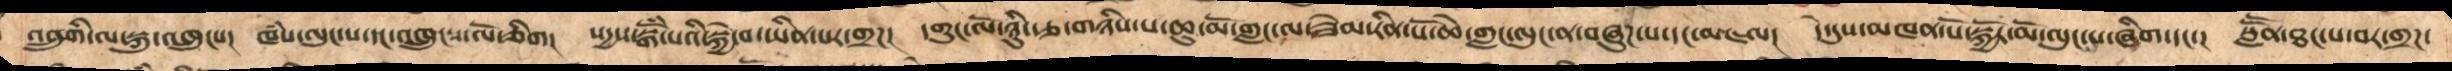འབྲུགི་ལ་སྐུ་འཁྲུངས།   ཁཾས་ལུང་ས་དང་འཁྲུངས་ལོ་ཅིག།   སདྱས་སྒོཾ་པའི་སྐྱེ་བ་ཡིན་པར་གྲཌ།  དགུང་ལོ་ཉིུ་རྩ་གཉིས་པ་ཆུ་མོ་གླང་ལ་ཟེམ་རིན་པོ་ཆེ་གླང་ལུང་ན་བཞུཌ་པ་དང་མཇལ།  དེ་དུས་མཁན་པོ་སྐྱོར་མོ་ལུང་པ་ཞིག་དང་།  སླཽན་ཐང་པ་བར་གྲཌ་
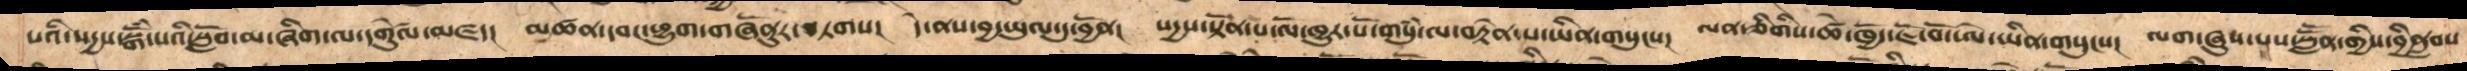པའི་སདྱས་སྒོཾ་པའི་སློབ་མ་ཞིག་ལ་དགེཚུལ་མཛད།  མཚན་དབང་ཕྱུག་གཞོནུར་བཏགས།།   དེ་ནས་བྱ་ཡུལ་དུ་བྱོན།  སདྱས་སྟོན་པ་ལོ་ཁྱུར་པོ་གསུཾ་ལ་བརྟེན་པ་ཡིན་གསུངས།   ལན་ཅིགིས་ཚེ་ཁྱོད་ཇོ་བོ་ཨེ་ཡིན་གསུངས།   ལག་ཞུས་པས་སླཽན་གྱིས་བྱིནླབས་
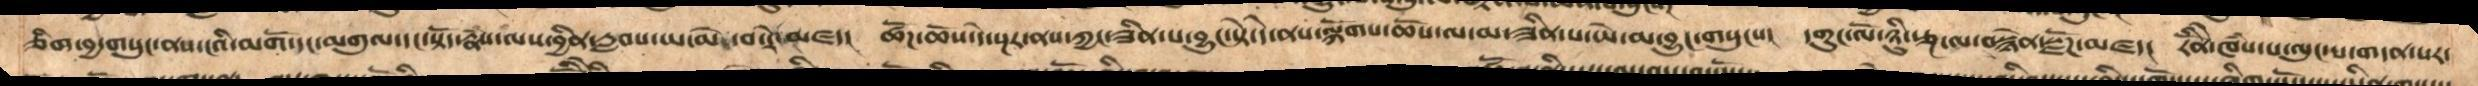ཅིག་བྱ་གསུང་ནས་ངའི་མགོ་དང་མགུལ་དང་སྟོད་རྣཾས་ལས་བྱིན་རླབས་ཡ་མེ་བ་རེ་མཛད།   ཚོཌ་ཆོས་དེ་སྔར་ནས་ཀྱང་ཟིན་པ་བྱུང་སྟེ་དེ་ནས་ལྐོགས་ཆོས་ལ་མ་ཟིན་པ་ཡེ་མ་བྱུང་གསུངས།  དགུང་ལོ་ཉིུ་རྩྔ་ལ་བསྙེན་སྫོཌ་མཛད།  རིནོེ་ཁཾས་པ་ལུང་པ་གདན་སར་
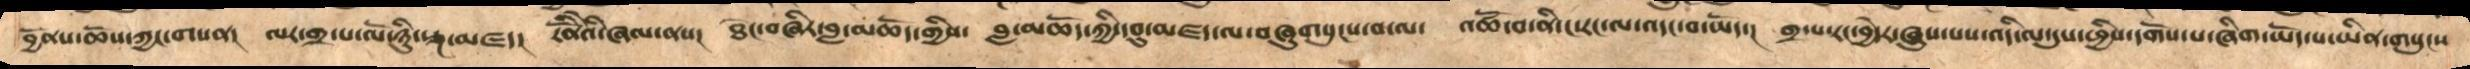བྱོནས་ཆོས་ཀྱང་གསན།   ལར་གྲ་པ་ལོ་ཉིུ་རྩྔ་མཛད།   རིནོེའི་ཞལ་ནས།  ཐེང་བཞིར་བླ་མཆོད་གྱིས་   བླ་མཆོད་ཀྱི་དབུ་མཛད་ལ་བཞུགསུངས་བ་ལ་  འཚོ་བ་ནི་ང་རང་ལ་འདང་བ་ཡོད་།   གྲ་པ་རང་བྱེདར་ཞུས་པས་འདི་ལ་དུས་ཕྱིས་དགོས་པ་ཞིག་ཡོད་པ་ཡིན་གསུངས
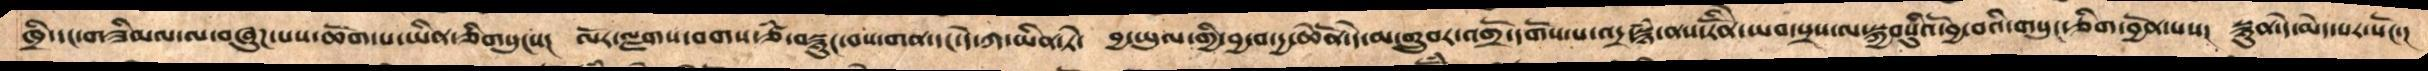ཁྲི་དང་གཟིམལ་ལ་བཞུཌ་པས་ཆོག་པ་ཡིན་ཅིགསུངས།    ལོར་ལྗགས་བགས་ཙཾ་བསྙུང་བས་གན་དང་དེ་ཀ་ཡིན་ཏེ་   བྱ་ཡུལ་གྱི་བྱ་བ་དྱ་ཆེནོ་དེ་མ་གྲུབར་འགྲོ་དགོས་པ་འདྲ་སྙཾ་ནས་རིནོེ་ཡབ་སྲས་ལ་སྐྱབསིུའོ་བྱ་བའི་གསུང་ཅིག་བྱོན་པས།   སྙུན་དེ་མེད་པར་སོང་།
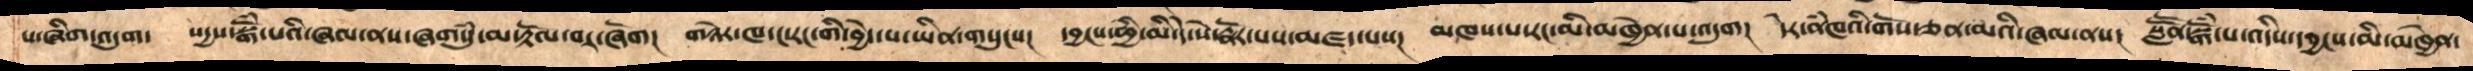པ་ཞིག་འདུག་  སདྱས་སྒོཾ་པའི་ཞལ་ནས་ཞགསུཾ་མ་རྟོལ་བར་ཞོག།  གཉེར་ཁ་ང་རང་གི་བྱེད་པ་ཡིན་གསུངས།   དབྱངས་ཕྱི་མི་དེ་སེ་རྣོར་པས་མཛད་པས།  མཁས་པ་རང་མི་མཁྱེན་པ་འདུག།  དེར་ནཾཁའི་གོས་ཅན་མའི་ཞལ་ནས།  སླཽན་སྒོཾ་པ་འདིས་དབྱངས་མི་མཁྱེན་
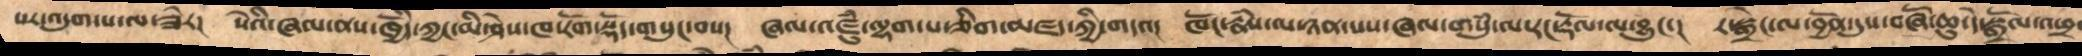སར་འདུག་པ་ལ་ཟེར།   སེའི་ཞལ་ནས་ཁྱོདི་ཀྱང་མི་ཤེས་ཁ་རོག་སྡོད་གསུང་བས།   ཞལ་འཛུཾ་ལྷག་པ་ཅིག་མཛད་ཀྱི་གདའ།  ཁོང་རྣཾས་ལ་ཉན་པས་ཞལ་གསུཾ་ལ་རང་རྡོལ་ལ་བྱུང་།  ར་སྒྲེང་ལ་བྱོན་དུས་བཞོ་ཆུ་དེ་སྒྲོལ་འཕྲོ་
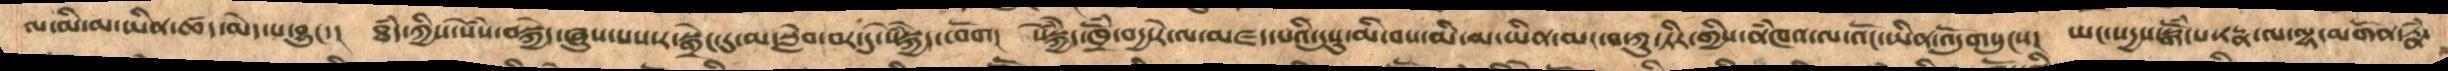ལ་མི་མ་ཡིན་ཚད་མེད་པ་བྱུང་།   ཐཾད་ཀྱིས་སེཾས་བསྐྱེད་ཞུས་པས་ར་སྒྲེང་དུ་མ་སླེབ་བར་དུ་སེཾསྐྱེད་ཕོག།   སེཾསྐྱེད་ཁྲོཾ་བདྱ་རེ་ལ་མཛད་པའི་དུསུ་མི་བས་མི་མ་ཡིན་མང་བ་ཀུ་ཏིར་གྱིས་ནཾཁའ་ལ་འོང་ཡིན་འདོུགསུངས།  ཡང་སདྱས་སྒོཾ་པ་རཏྣ་ལ་ལྷ་མགོན་རྣཾ་
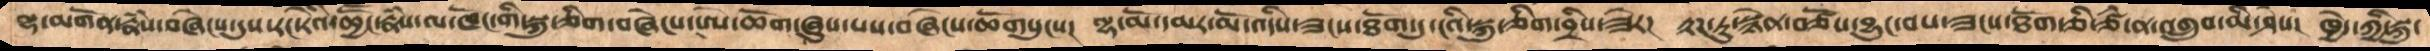ལྷ་མགོན་རྣཾས་བཞེངས་དུས་རང་རེའི་ཆྱཽང་རྣཾས་ལ་ཁོང་གི་སྐུ་ཅིག་བཞེངས་ཨེ་ཆོག་ཞུས་པས་བཞེངས་ཆོགསུངས།   ལྷ་མོ་དམར་མོ་འདིས་ཟངས་ཐོག་དུ་ངའི་སྐུ་ཅིག་བྲིས་ཟེར།  རྟཌ་ཏུ་སྙེན་བཙོས་བྱུང་བས་ཟངས་ཐོག་ཅི་ཙམ་ན་འགྲུབ་མི་ཤེས།  ཁྱེད་ཀྱི་སྐུ་
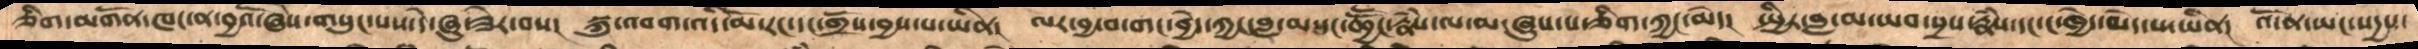ཅིག་མགོན་ཁང་ན་བྱའོ་ཞེས་གསུངས་པས་དེ་ཞུ་ཟེར་བས།   སྐུ་འབག་འདི་མོ་རང་དང་གྲོས་བྱས་པ་ཡིན།   ལར་བྱ་བ་གང་བྱེད་ཀྱང་བླ་མ་དང་ཆྱཽང་རྣཾས་ལ་མ་ཞུས་པ་ཅིག་ཀྱང་མེད།  སྤྱིར་བླ་མ་ཡབ་སྲས་རྣཾས་དང་ང་ཁྱེད་མེད་སར་ཡིན།  འོ་ན་ཡང་སདྱས་
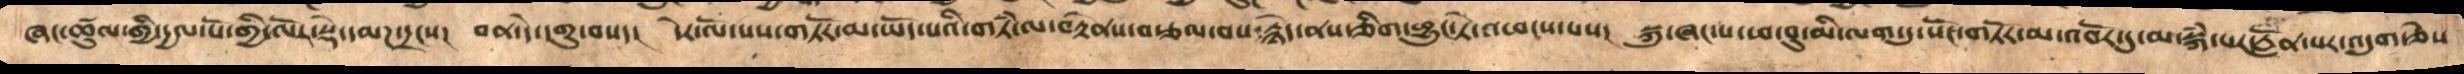ཞང་ཚུལ་གྱི་དྱལ་པོ་གྱི་ལོར་སྡེ་དམཌ་དྲངས།  བན་དེ་དགུ་བསད།   དེར་ལོ་པས་གཏོར་མ་ཡོད་པའི་གཏཾ་ལ་བརྟེནས་བརྩལ་བས་རྙེད་ནས་ཅིག་ཕྱུང་ཏེ་འཕངས་པས།  སྐུ་ཞང་པ་ཕ་བུ་མི་ལག་དུ་སོང་གཏོར་མ་འབོར་དུ་མ་སྐཾ་པར་རློན་པར་འདུག་ཅེས
